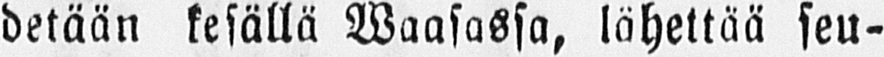detään kesällä Waasassa, lähettää seu-
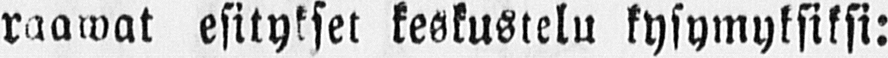raawat esitykset keskustelu kysymyksiksi:
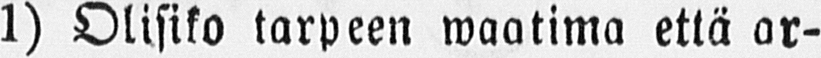1) Olisiko tarpeen waalima että ar-
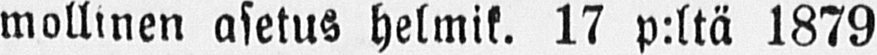mollinen asetus helmik. 17 p:ltä 1879
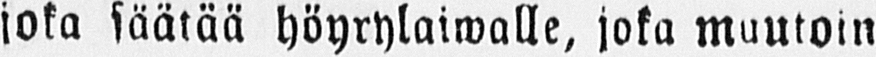joka säätää höyrylaiwalle, joka muutoin
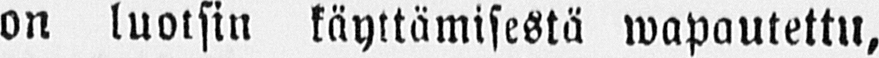on luotsin käyttämisestä wapautettu,
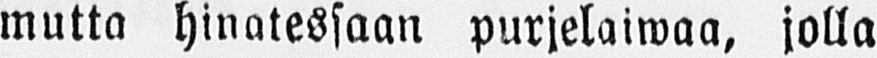mutta hinatessaan purjelaiwaa, jolla
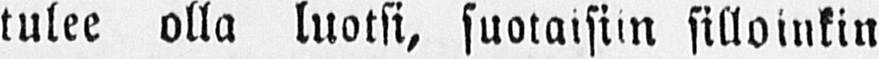tulee olla luotsi, suotaisiin silloinkin
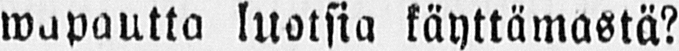wapautta luotsia täyttämästä?
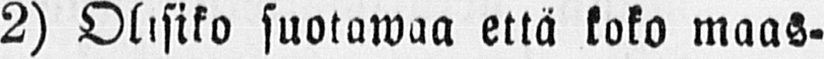2) Olisiko suotawaa että koko maas-
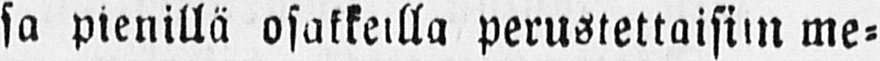sa pienillä osakkeilla perustettaisiin me-
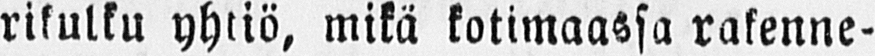rikulku yhtiö, mikä kotimaassa rakenne-
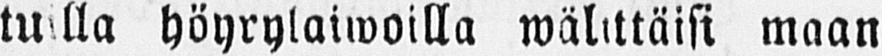tuilla höyrylaiwoilla wälittäisi maan
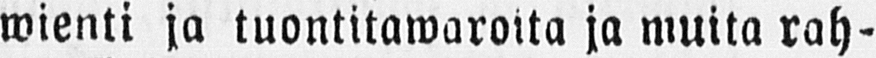wienti ja tuontitawaroita ja muita rah-
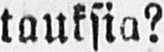tauksia?
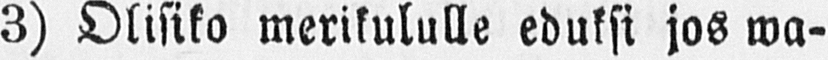3) Olisiko merikululle eduksi jos wa-
